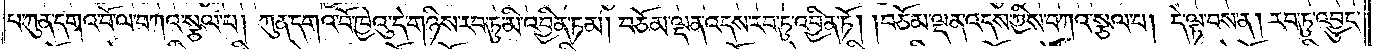པ་ཀུན་དགའ་བོ་ལ་བཀའ་སྩལ་པ། ཀུན་དགའ་བོ་ཁྱེའུ་དེ་གཉིས་རབ་ཏུ་མི་འབྱིན་ཏམ། བཅོམ་ལྡན་འདས་རབ་ཏུ་འབྱིན་ཏོ། །བཅོམ་ལྡན་འདས་ཀྱིས་བཀའ་སྩལ་པ། དེ་ལྟ་བས་ན། རབ་ཏུ་འབྱུང་
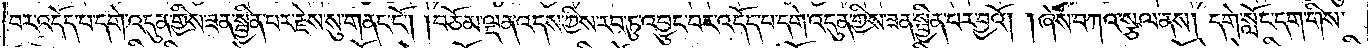བར་འདོད་པ་དགེ་འདུན་གྱིས་ཟན་སྦྱིན་པར་རྗེས་སུ་གནང་ངོ༌། །བཅོམ་ལྡན་འདས་ཀྱིས་རབ་ཏུ་འབྱུང་བར་འདོད་པ་དགེ་འདུན་གྱིས་ཟན་སྦྱིན་པར་བྱའོ། །ཞེས་བཀའ་སྩལ་ནས། དགེ་སློང་དག་གིས་
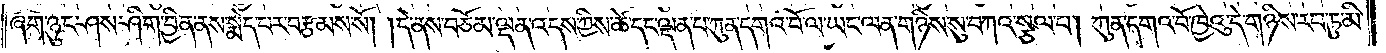ཞག་ཉུང་ཤས་ཤིག་བྱིན་ནས་སྨེད་པར་བརྩམས་སོ། །དེ་ནས་བཅོམ་ལྡན་འདས་ཀྱིས་ཚེ་དང་ལྡན་པ་ཀུན་དགའ་བོ་ལ་ཡང་ལན་གཉིས་སུ་བཀའ་སྩལ་པ། ཀུན་དགའ་བོ་ཁྱེའུ་དེ་གཉིས་རབ་ཏུ་མི་
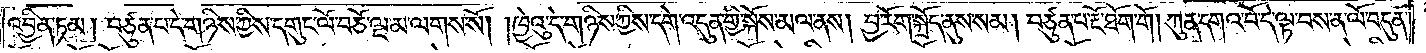འབྱིན་ཏམ། བཙུན་པ་དེ་གཉིས་ཀྱིས་དགུང་ལོ་བཅོ་ལྔ་མ་ལགས་སོ། །ཁྱེའུ་དེ་གཉིས་ཀྱིས་དགེ་འདུན་གྱི་སྐོས་མལ་ནས། བྱ་རོག་སྐྲོད་ནུས་སམ། བཙུན་པ་རྔོ་ཐོག་གོ། ཀུན་དགའ་བོ་དེ་ལྟ་བས་ན་ལོ་བདུན་
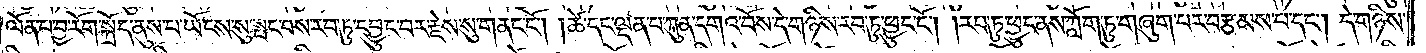ལོན་པ་བྱ་རོག་སྐྲོད་ནུས་པ་ཡོངས་སུ་སྤང་པས་རབ་ཏུ་དབྱུང་བར་རྗེས་སུ་གནང་ངོ༌། །ཚེ་དང་ལྡན་པ་ཀུན་དགའ་བོས་དེ་གཉིས་རབ་ཏུ་ཕྱུང་ངོ༌། །རབ་ཏུ་ཕྱུང་ནས་ཀློག་ཏུ་གཞུག་པར་བརྩམས་པ་དང༌། དེ་གཉིས་
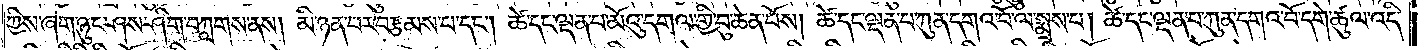ཀྱིས་ཞག་ཉུང་ཤས་ཤིག་བཀླགས་ནས། མི་ཉན་པར་བརྩམས་པ་དང༌། ཚེ་དང་ལྡན་པ་མོའུ་དགལ་གྱི་བུ་ཆེན་པོས། ཚེ་དང་ལྡན་པ་ཀུན་དགའ་བོ་ལ་སྨྲས་པ། ཚེ་དང་ལྡན་པ་ཀུན་དགའ་བོ་དགེ་ཚུལ་འདི་
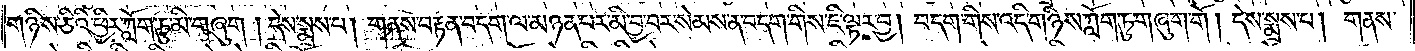གཉིས་ཅིའི་ཕྱིར་ཀློག་ཏུ་མི་གཞུག། དེས་སྨྲས་པ། གནས་བརྟན་པ་དག་ལ་མཉམ་པར་མི་བྱ་བར་སེམས་ན་བདག་གིས་ཇི་ལྟར་བྱ། བདག་གིས་འདི་གཉིས་ཀློག་ཏུ་གཞུག་གོ། དེས་སྨྲས་པ། གནས་
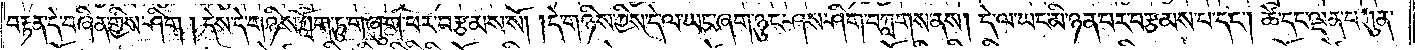བརྟན་དེ་བཞིན་གྱིས་ཤིག། དེས་དེ་གཉིས་ཀློག་ཏུ་གཞུག་པར་བརྩམས་སོ། །དེ་གཉིས་ཀྱིས་དེ་ལ་ཡང་ཞག་ཉུང་ཤས་ཤིག་བཀླགས་ནས། དེ་ལ་ཡང་མི་ཉན་པར་བརྩམས་པ་དང༌། ཚེ་དང་ལྡན་པ་ཀུན་
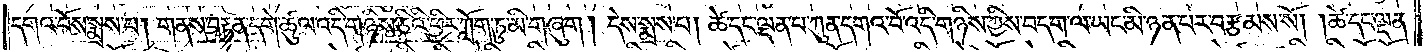དགའ་བོས་སྨྲས་པ། གནས་བརྟན་དགེ་ཚུལ་འདི་གཉིས་ཅིའི་ཕྱིར་ཀློག་ཏུ་མི་གཞུག། དེས་སྨྲས་པ། ཚེ་དང་ལྡན་པ་ཀུན་དགའ་བོ་འདི་གཉིས་ཀྱིས་བདག་ལ་ཡང་མི་ཉན་པར་བརྩམས་སོ། །ཚེ་དང་ལྡན་
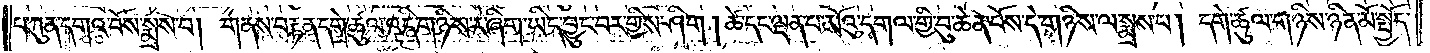པ་ཀུན་དགའ་བོས་སྨྲས་པ། གནས་བརྟན་དགེ་ཚུལ་འདི་གཉིས་རེ་ཞིག་ཡིད་བྱུང་བར་གྱིས་ཤིག། ཚེ་དང་ལྡན་པ་མོའུ་དགལ་གྱི་བུ་ཆེན་པོས་དེ་གཉིས་ལ་སྨྲས་པ། དགེ་ཚུལ་གཉིས་ཉིན་མོ་སྤྱོད་
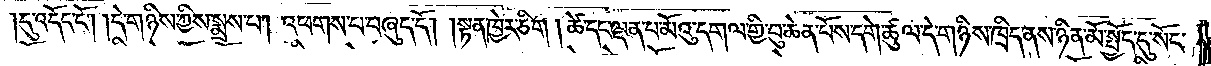།དུ་འདོང་ངོ༌། །དེ་གཉིས་ཀྱིས་སྨྲས་པ། འཕགས་པ་བཞུད་དོ། །སྟན་ཁྱེར་ཅིག །ཚེ་དང་ལྡན་པ་མོའུ་དགལ་གྱི་བུ་ཆེན་པོས་དགེ་ཚུལ་དེ་གཉིས་ཁྲིད་ནས་ཉིན་མོ་སྤྱོད་དུ་སོང་
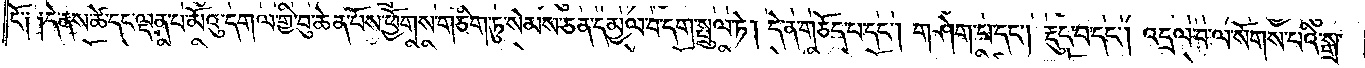ངོ༑ ༑དེ་ནས་ཆེ་དང་ལྡན་པ་མོའུ་དགལ་གྱི་བུ་ཆེན་པོས་ཕྱོགས་གཅིག་ཏུ་སེམས་ཅན་དམྱལ་བ་དག་སྤྲུལ་ཏེ། དེ་ན་གཅོད་པ་དང༌། གཤེག་པ་དང༌། རྡུང་བ་དང༌། འདྲལ་བ་ལ་སོགས་པའི་སྒྲ་
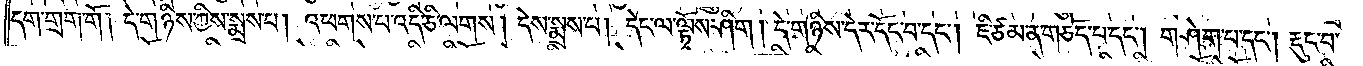དག་གྲག་གོ། དེ་གཉིས་ཀྱིས་སྨྲས་པ། འཕགས་པ་འདི་ཅི་ལགས། དེས་སྨྲས་པ། དེང་ལ་ལྟོས་ཤིག། དེ་གཉིས་དེར་དོང་བ་དང༌། ཇི་ཙམ་ན་གཅོད་པ་དང༌། གཤེག་པ་དང༌། རྡུང་བ་
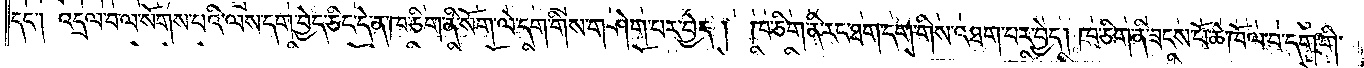དང༌། འདྲལ་བ་ལ་སོགས་པའི་ལས་དག་བྱེད་ཅིང་དེ་ན་ཁ་ཅིག་ནི་སོག་ལེ་དག་གིས་གཤེག་པར་བྱེད། ཁ་ཅིག་ནི་རང་ཐག་དག་གིས་འཐག་པར་བྱེད། ཁ་ཅིག་ནི་ཟངས་པོ་ཆེ་ཁོལ་བ་དག་གི་
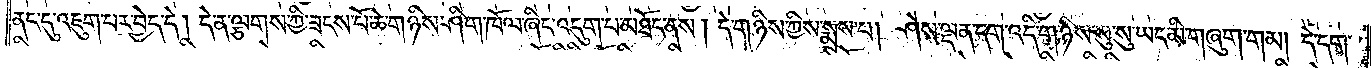ནང་དུ་འཇུག་པར་བྱེད་དེ། དེ་ན་ལྕགས་ཀྱི་ཟངས་པོ་ཆེ་གཉིས་ཤིག་ཁོལ་ཞིང་འདུག་པ་མཐོང་ནས། དེ་གཉིས་ཀྱིས་སྨྲས་པ། ཤེས་ལྡན་དག་འདི་གཉིས་སུ་སུ་ཡང་མི་གཞུག་གམ། དེ་དག་
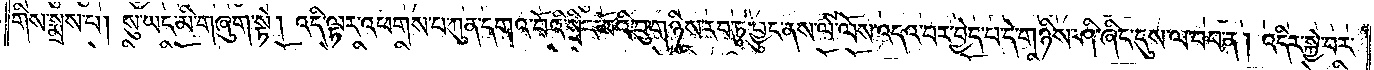གིས་སྨྲས་པ། སུ་ཡང་མི་གཞུག་སྟེ། འདི་ལྟར་འཕགས་པ་ཀུན་དགའ་བོའི་སྲིང་མོའི་བུ་གཉིས་རབ་ཏུ་བྱུང་ནས་ལེ་ལོས་འདའ་བར་བྱེད་པ་དེ་གཉིས་ཤི་ཞིང་དུས་ལ་བབ་ན། འདིར་སྐྱེ་བར་
